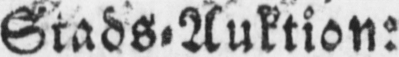Stads-Auktion:
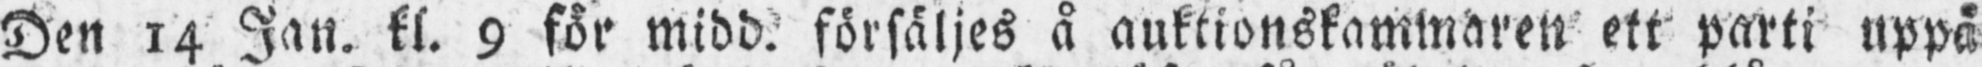Den 14 Jan. kl. 9 för midd. försäljes å auktionskammaren ett parti uppå
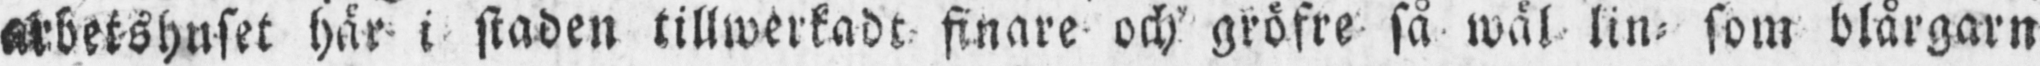arbetshuset här i staden tillwerkadt finare och gröfre så wäl lin- som blårgarn
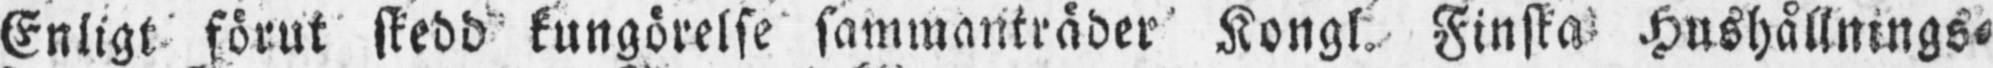Enligt förut skedd kungörelse sammanträder Kongl. Finska Hushållnings-
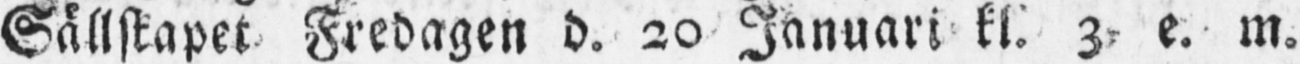Sällskapet Fredagen d. 20 Januari kl. 3. e. m.
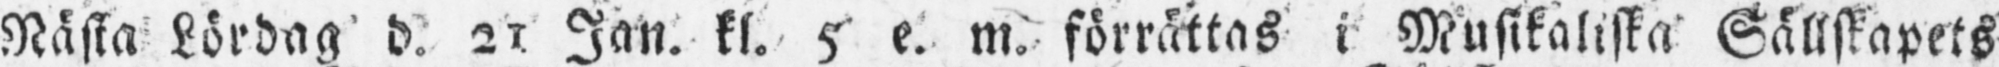Nästa Lördag d. 21 Jan. kl. 5 e. m. förrättas i Musikaliska Sällskapets
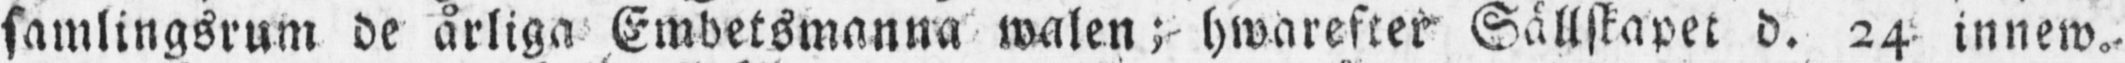samlingsrum de årliga Embetsmanna walen; hwarefter Sällskapet d. 24 innew.
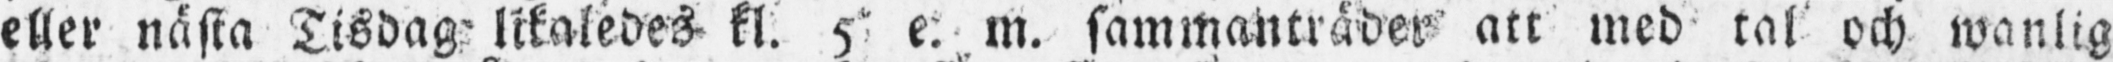eller nästa Tisdag likaledes kl. 5 e. m. sammanträder att med tal och wanlig
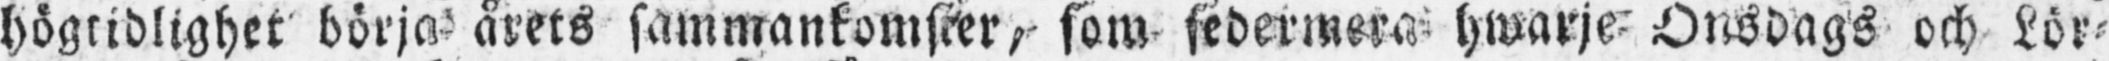högtidlighet börja årets sammankomster, som sedermera hwarje Onsdags och Lör-
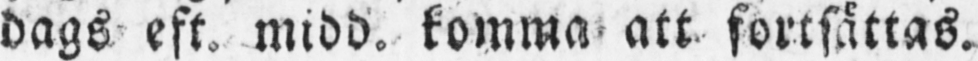dags eft. midd. komma att fortsättas.
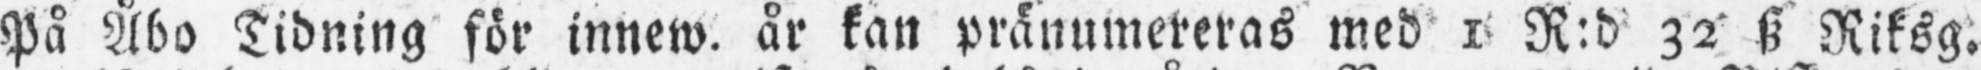På Åbo Tidning för innew. år kan pränumereras med 1 R:d 32 sz Riksg.
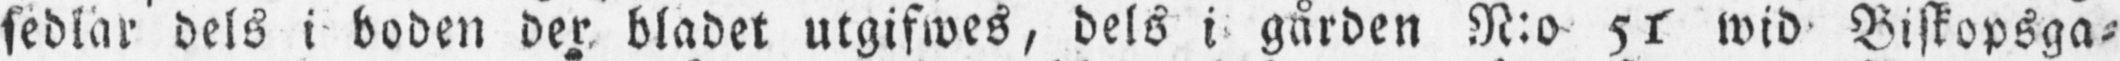sedlar dels i boden der bladet utgifwes, dels i gården N:o 51 wid Biskopsga-
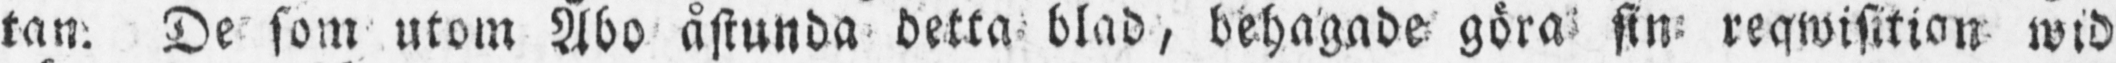tan. De som utom Åbo åstunda detta blad, behagade göra sin reqwisition wid
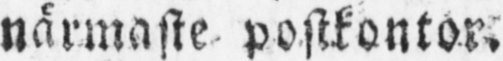närmaste postkontor.
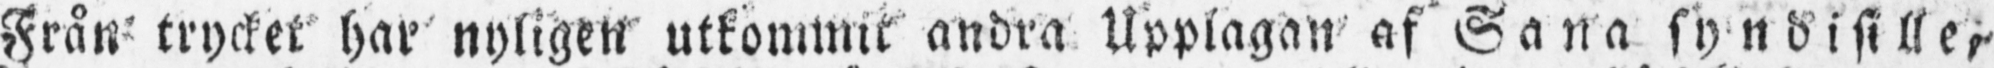Från trycket har nyligen utkommit andra Upplagan af Sana sy ndisille,
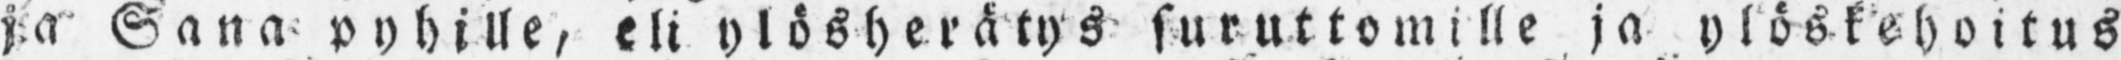ja Sana pyhi lle, eli y l ö s h e r ä ty s suruttomille ja y l ö s k e h o i t u s
